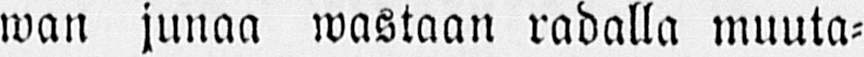wan junaa wastaan radalla muuta-
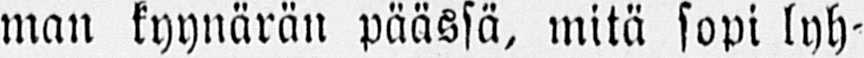man kyynärän päässä, mitä sopi lyh-
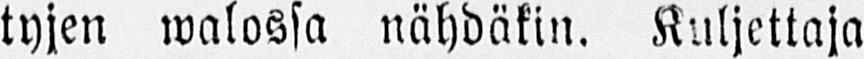tyjen walossa nähdäkin. Kuljettaja
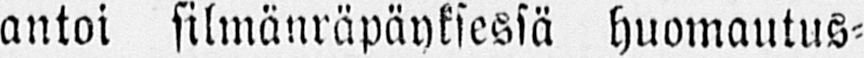antoi silmänräpäyksessä huomautus-
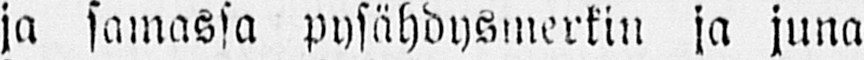ja samassa pysähdysmerkin ja juna
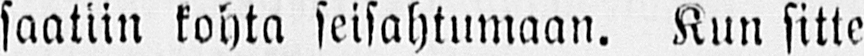saatiin kohta seisahtumaan. Kun sitte
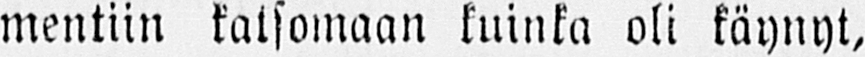mentiin katsomaan kuinka oli käynyt,
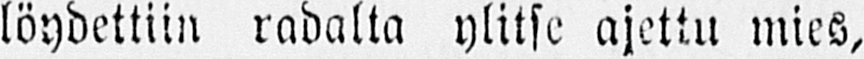löydettiin radalta ylitse ajettu mies,
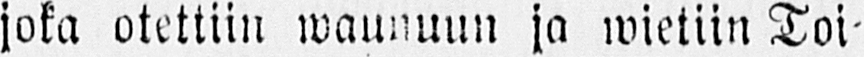joka otettiin waunuun ja wietiin Toi-
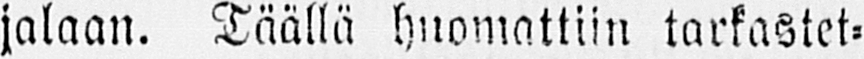jalaan. Täällä huomattiin tarkastet-
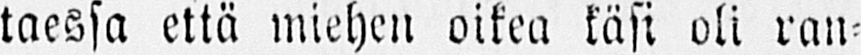taessa että miehen oikea käsi oli ran-
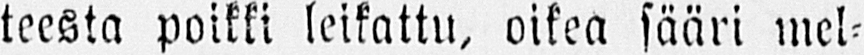teesta poikki leikattu, oikea sääri mel-
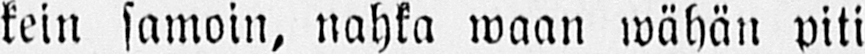kein samoin, nahka waan wähän piti
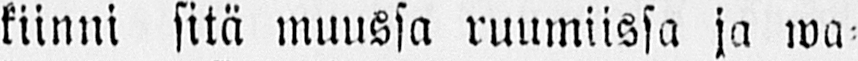kiinni sitä muussa ruumiissa ja wa-
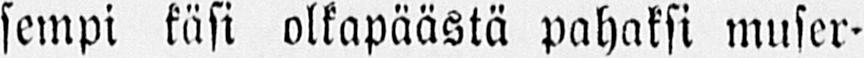sempi käsi olkapäästä pahaksi muser-
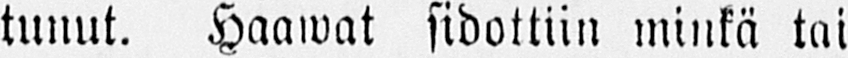tunut. Haawat sidottiin minkä tai-
